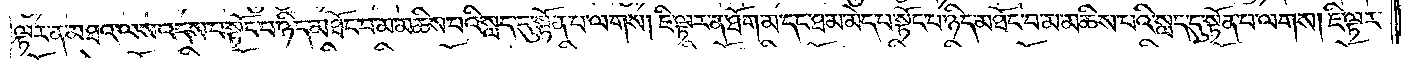ལྟར་ན་མཐའ་ལས་འདས་པ་སྟོང་པ་ཉིད་མཐོང་བ་མ་མཆིས་པའི་སླད་དུ་སྟོན་པ་ལགས། ཇི་ལྟར་ན་ཐོག་མ་དང་ཐ་མ་མེད་པ་སྟོང་པ་ཉིད་མཐོང་བ་མ་མཆིས་པའི་སླད་དུ་སྟོན་པ་ལགས། ཇི་ལྟར་
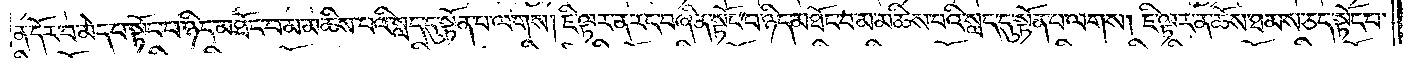ན་དོར་བ་མེད་པ་སྟོང་པ་ཉིད་མཐོང་བ་མ་མཆིས་པའི་སླད་དུ་སྟོན་པ་ལགས། ཇི་ལྟར་ན་རང་བཞིན་སྟོང་པ་ཉིད་མཐོང་བ་མ་མཆིས་པའི་སླད་དུ་སྟོན་པ་ལགས། ཇི་ལྟར་ན་ཆོས་ཐམས་ཅད་སྟོང་པ་
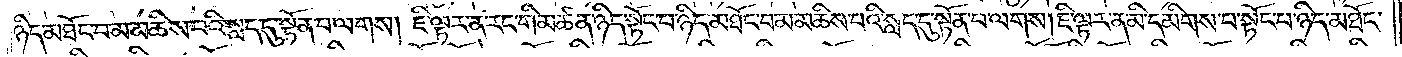ཉིད་མཐོང་བ་མ་མཆིས་པའི་སླད་དུ་སྟོན་པ་ལགས། ཇི་ལྟར་ན་རང་གི་མཚན་ཉིད་སྟོང་པ་ཉིད་མཐོང་བ་མ་མཆིས་པའི་སླད་དུ་སྟོན་པ་ལགས། ཇི་ལྟར་ན་མི་དམིགས་པ་སྟོང་པ་ཉིད་མཐོང་
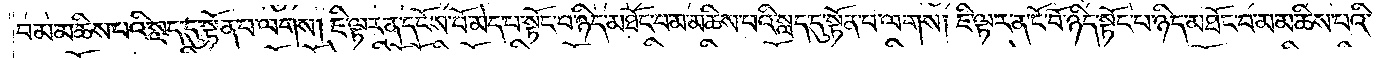བ་མ་མཆིས་པའི་སླད་དུ་སྟོན་པ་ལགས། ཇི་ལྟར་ན་དངོས་པོ་མེད་པ་སྟོང་པ་ཉིད་མཐོང་བ་མ་མཆིས་པའི་སླད་དུ་སྟོན་པ་ལགས། ཇི་ལྟར་ན་ངོ་བོ་ཉིད་སྟོང་པ་ཉིད་མཐོང་བ་མ་མཆིས་པའི་
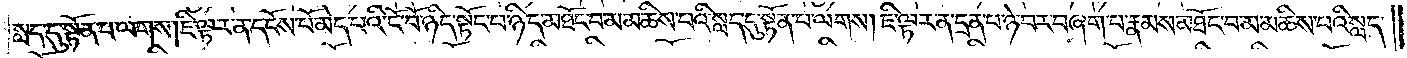སླད་དུ་སྟོན་པ་ལགས། ཇི་ལྟར་ན་དངོས་པོ་མེད་པའི་ངོ་བོ་ཉིད་སྟོང་པ་ཉིད་མཐོང་བ་མ་མཆིས་པའི་སླད་དུ་སྟོན་པ་ལགས། ཇི་ལྟར་ན་དྲན་པ་ཉ་བར་བཞག་པ་རྣམས་མཐོང་བ་མ་མཆིས་པའི་སླད་
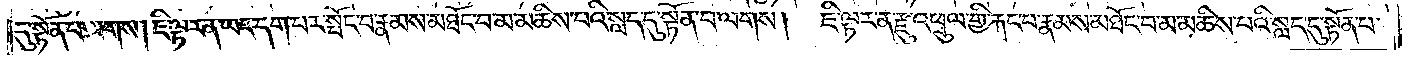དུ་སྟོན་པ་ལགས། ཇི་ལྟར་ན་ཡང་དག་པར་སྤོང་བ་རྣམས་མཐོང་བ་མ་མཆིས་པའི་སླད་དུ་སྟོན་པ་ལགས། ཇི་ལྟར་ན་རྫུ་འཕྲུལ་གྱི་རྐང་པ་རྣམས་མཐོང་བ་མ་མཆིས་པ་སླད་དུ་སྟོན་པ་
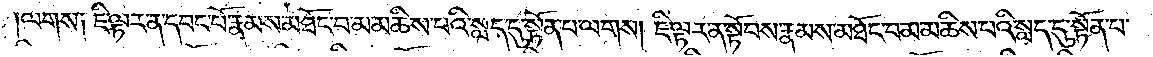ལགས། ཇི་ལྟར་ན་དབང་པོ་རྣམས་མཐོང་བ་མ་མཆིས་པའི་སླད་དུ་སྟོན་པ་ལགས། ཇི་ལྟར་ན་སྟོབས་རྣམས་མཐོང་བ་མ་མཆིས་པའི་སླད་དུ་སྟོན་པ་
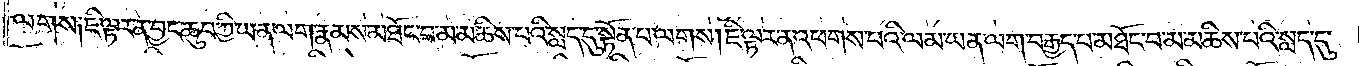ལགས། ཇི་ལྟར་ན་བྱང་ཆུབ་ཀྱི་ཡན་ལག་རྣམས་མཐོང་བ་མ་མཆིས་པའི་སླད་དུ་སྟོན་པ་ལགས། ཇི་ལྟར་ན་འཕགས་པའི་ལམ་ཡན་ལག་བརྒྱད་པ་མཐོང་བ་མ་མཆིས་པའི་སླད་དུ་
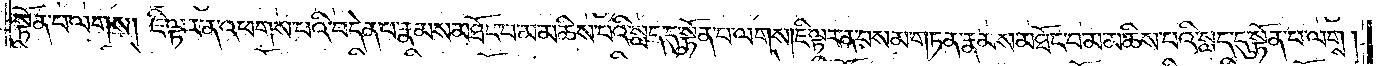སྟོན་པ་ལགས། ཇི་ལྟར་ན་འཕགས་པའི་བདེན་པ་རྣམས་མཐོང་བ་མ་མཆིས་པའི་སླད་དུ་སྟོན་པ་ལགས། ཇི་ལྟར་ན་བསམ་གཏན་རྣམས་མཐོང་བ་མ་མཆིས་པའི་སླད་དུ་སྟོན་པ་ལགས།
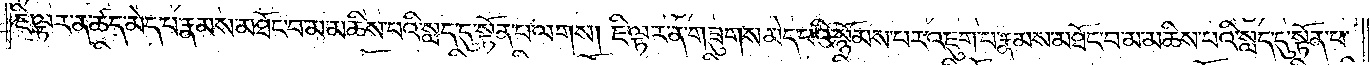ཇི་ལྟར་ན་ཚད་མེད་པ་རྣམས་མཐོང་བ་མ་མཆིས་པའི་སླད་དུ་སྟོན་པ་ལགས། ཇི་ལྟར་ན་གཟུགས་མེད་པའི་སྙོམས་པར་འཇུག་པ་རྣམས་མཐོང་བ་མ་མཆིས་པའི་སླད་དུ་སྟོན་པ་
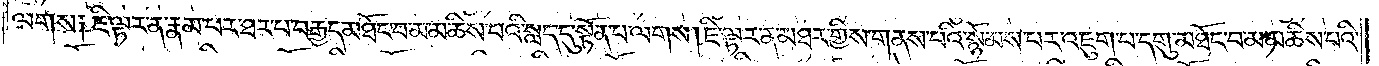ལགས༑ ཇི་ལྟར་ན་རྣམ་པར་ཐར་པ་བརྒྱད་མཐོང་བ་མ་མཆིས་པའི་སླད་དུ་སྟོན་པ་ལགས། ཇི་ལྟར་ན་མཐར་གྱིས་གནས་པའི་སྙོམས་པར་འཇུག་པ་དགུ་མཐོང་བ་མ་མཆིས་པའི་
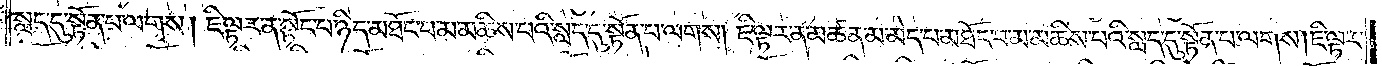སླད་དུ་སྟོན་པ་ལགས། ཇི་ལྟར་ན་སྟོང་པ་ཉིད་མཐོང་བ་མ་མཆིས་པའི་སླད་དུ་སྟོན་པ་ལགས། ཇི་ལྟར་ན་མཚན་མ་མེད་པ་མཐོང་བ་མ་མཆིས་པའི་སླད་དུ་སྟོན་པ་ལགས། ཇི་ལྟར་
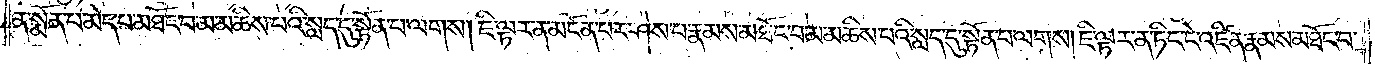ན་སྨོན་པ་མེད་པ་མཐོང་བ་མ་མཆིས་པའི་སླད་དུ་སྟོན་པ་ལགས། ཇི་ལྟར་ན་མངོན་པར་ཤེས་པ་རྣམས་མཐོང་བ་མ་མཆིས་པའི་སླད་དུ་སྟོན་པ་ལགས། ཇི་ལྟར་ན་ཏིང་ངེ་འཛིན་རྣམས་མཐོང་བ་
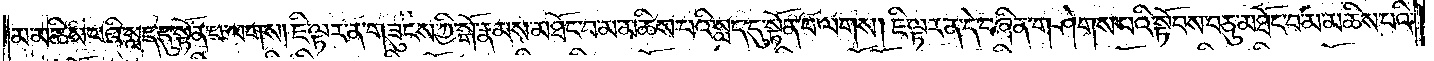མ་མཆིས་པའི་སླད་དུ་སྟོན་པ་ལགས། ཇི་ལྟར་ན་གཟུངས་ཀྱི་སྒོ་རྣམས་མཐོང་བ་མ་མཆིས་པའི་སླད་དུ་སྟོན་པ་ལགས། ཇི་ལྟར་ན་དེ་བཞིན་གཤེགས་པའི་སྟོབས་བཅུ་མཐོང་བ་མ་མཆིས་པའི་
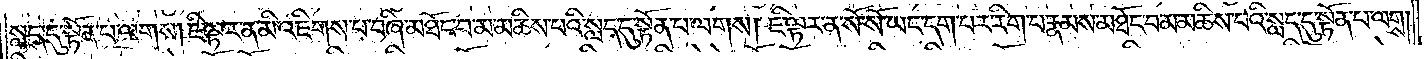སླད་དུ་སྟོན་པ་ལགས། ཇི་ལྟར་ན་མི་འཇིགས་པ་བཞི་མཐོང་བ་མ་མཆིས་པའི་སླད་དུ་སྟོན་པ་ལགས། ཇི་ལྟར་ན་སོ་སོ་ཡང་དག་པར་རིག་པ་རྣམས་མཐོང་བ་མ་མཆིས་པའི་སླད་དུ་སྟོན་པ་ལགས།
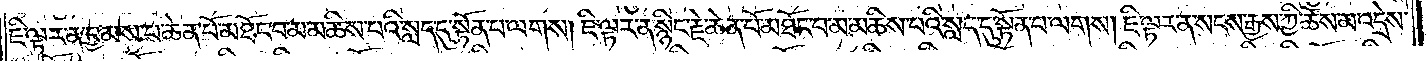ཇི་ལྟར་ན་བྱམས་པ་ཆེན་པོ་མཐོང་བ་མ་མཆིས་པའི་སླད་དུ་སྟོན་པ་ལགས། ཇི་ལྟར་ན་སྙིང་རྗེ་ཆེན་པོ་མཐོང་བ་མ་མཆིས་པའི་སླད་དུ་སྟོན་པ་ལགས། ཇི་ལྟར་ན་སངས་རྒྱས་ཀྱི་ཆོས་མ་འདྲེས་
